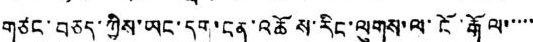གཙང་བཅད་ཀྱིས་ཡང་དག་ངན་འཆོས་རིང་ལུགས་ལ་ངོ་རྒོལ་་་་་
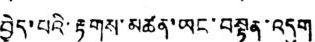བྱེད་པའི་རྟགས་མཚན་ཡང་བསྟན་འདུག
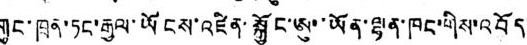གུང་ཁྲན་ཏང་རྒྱལ་ཡོངས་འཛིན་སྐྱོང་ཨུ་ཡོན་ལྷན་ཁང་གིས་འབོད་
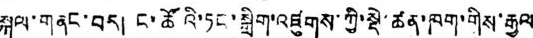སྐུལ་གནང་བར། ང་ཚོའི་ཏང་སྒྲིག་འཛུགས་ཀྱི་སྡེ་ཚན་ཁག་གིས་རྒྱལ
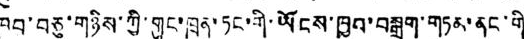ཁབ་བཅུ་གཉིས་ཀྱི་གུང་ཁྲན་ཏང་གི་ཡོངས་ཁྱབ་བསྒྲག་གཏམ་ནང་གི་
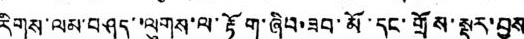རིགས་ལམ་བཤད་ལུགས་ལ་རྟོག་ཞིབ་ཟབ་མོ་དང་གྲོས་སྡུར་བྱས་
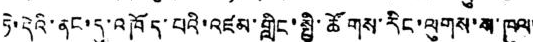ཏེ་དེའི་ནང་དུ་འཁོད་པའི་འཛམ་གླིང་སྤྱི་ཚོགས་རིང་ལུགས་ས་ཁུལ་
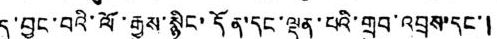དུ་བྱུང་བའི་ལོ་རྒྱུས་སྙིང་དོན་དང་ལྡན་པའི་གྲུབ་འབྲས་དང་།
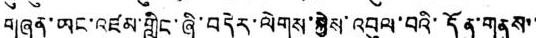གཞན་ཡང་འཛམ་གླིང་ཞི་བདེར་ལེགས་སྐྱེས་འབུལ་བའི་དོན་གནས་་
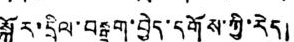སྐོར་དྲིལ་བསྒྲག་བྱེད་དགོས་ཀྱི་རེད།
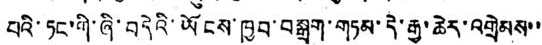པའི་ཏང་གི་ཞི་བདེའི་ཡོངས་ཁྱབ་བསྒྲག་གཏམ་དེ་རྒྱ་ཆེར་འགྲེམས་་
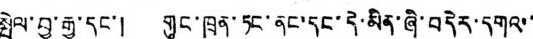སྤེལ་བྱ་རྒྱུ་དང་། གུང་ཁྲན་ཏང་ནང་དང་དེ་མིན་ཞི་བདེར་དགའ་་
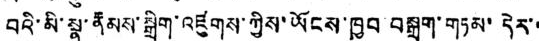བའི་མི་སྣ་རྣམས་སྒྲིག་འཛུགས་ཀྱིས་ཡོངས་ཁྱབ བསྒྲག་གཏམ་དེར་་
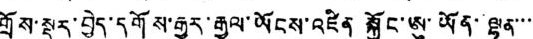གྲོས་སྡུར་བྱེད་དགོས་རྒྱུར་རྒྱལ་ཡོངས་འཛིན སྐྱོང་ཨུ་ཡོན་ལྷན་་་
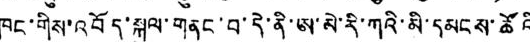ཁང་གིས་འབོད་སྐུལ་གནང་བ་དེ་ནི་ཨ་མེ་རི་ཀའི་མི་དམངས་ཚོའི
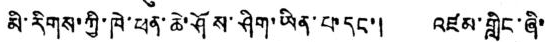མི་རིགས་ཀྱི་ཁེ་ཕན་ཆེ་ཤོས་ཤིག་ཡིན་པ་དང་། འཛམ་གླིང་ཞི་
